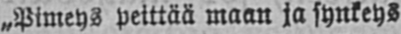„Pimeys peittää maan ja synkeys
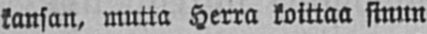kansan, mutta Herra koittaa sinun
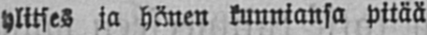ylitses ja hänen kunniansa pitää
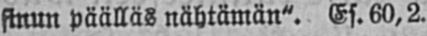sinun päälläs nähtämän". Es. 60,2.
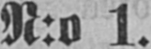N:o 1.
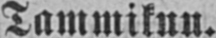Tammikuu.
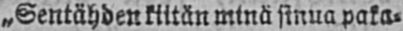„Sentähden kiitän minä sinua paka-
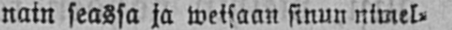nain seassa ja weisaan sinun nimel-
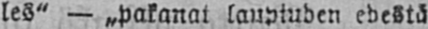les" — „pakanat lauptuden edestä
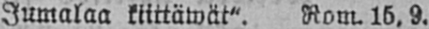Jumalaa kiittäwät". Rom. 15, 9.
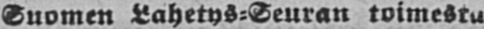Suomen Lahetys-Seuran toimesta.
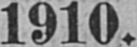1910.
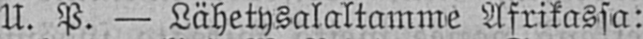U. P. — Lähetysalaltamme Afrikassa:
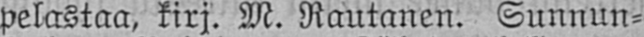pelastaa, kirj. M. Rautanen. Sunnun-
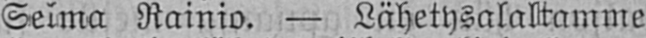Seima Rainio. — Lähetysalaltamme
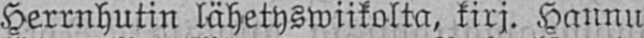Herrnhutin lähetyswiikolta, kirj. Hannu
